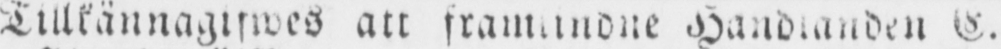Tillkännagifwes att framlindne Handlanden C.
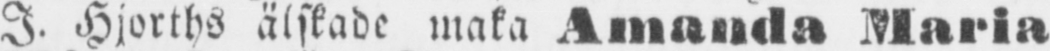I. Hjorths älskade maka Amanda Maria
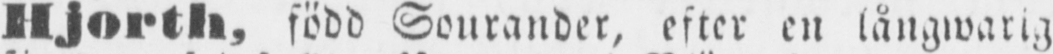Hjorth, född Sourander, efter en långwarig
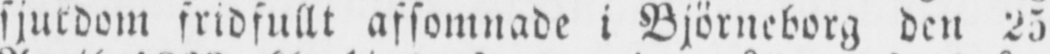sjukdom fridfullt afsomnade i Björneborg den 25
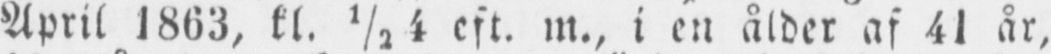April 1863, kl. 1/2 4 eft. m., i en ålder af 4l år,
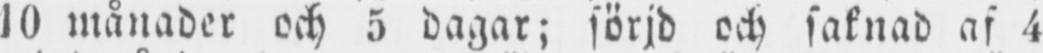10 månader och 5 dagar; sörjd och saknad af 4
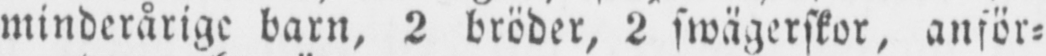minderårige barn, 2 bröder, 2 swägerskor, anför-
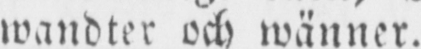wandter och wänner.
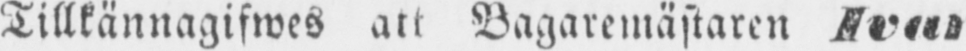Tillkännagifwes att Bagaremästaren Ivar
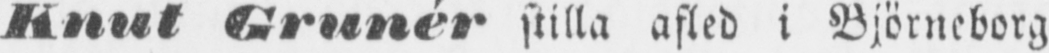Knut Grunér stilla afled i Björneborg
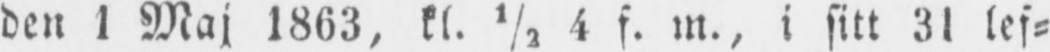den 1 Maj 1863, kl. 1/2 4 f. m., i sitt 31 lef-
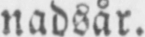nadsår.
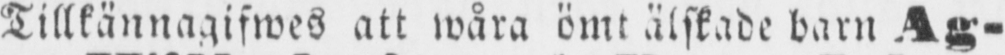Tillkännagifwes att wåra ömt älskade barn Ag-
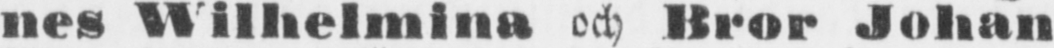nes Wilhelmina och Bror Johan
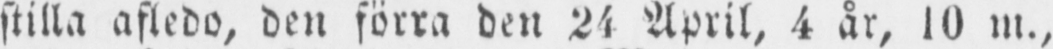stilla afledo, den förra den 24 April, 4 år, lO m.,
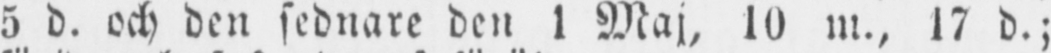5 d. och den sednare den 1 Maj, 10 m., 17 d.;
